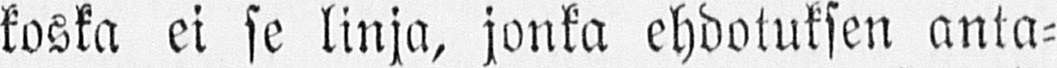koska ei se linja, jonka ehdotuksen anta-
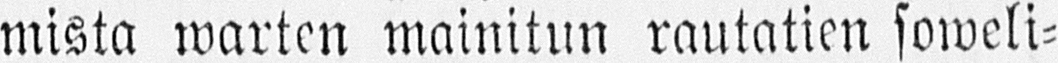mista warten mainitun rautatien soweli-
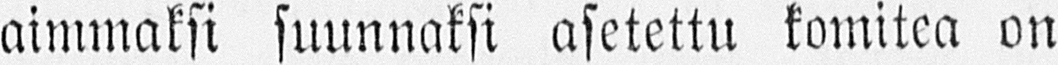aimmaksi suunnaksi asetettu komitea on
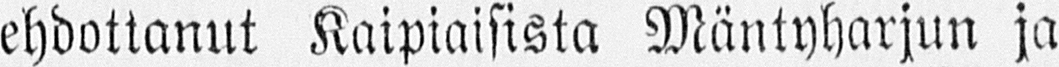ehdottanut Kaipiaisista Mäntyharjun ja
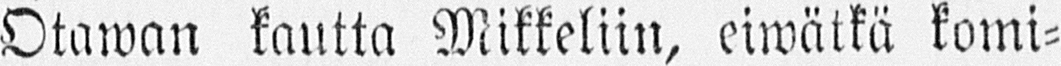Otawan kautta Mikkeliin, eiwätkä komi-
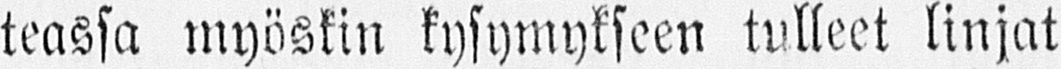teassa myöskin kysymykseen tulleet linjat
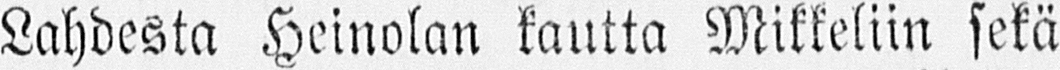Lahdesta Heinolan kautta Mikkeliin sekä
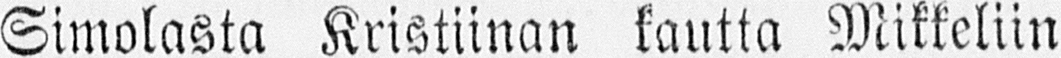Simolasta Kristiinan kautta Mikkeliin
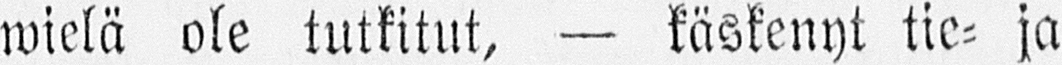wielä ole tutkitut, — käskenyt tie- ja
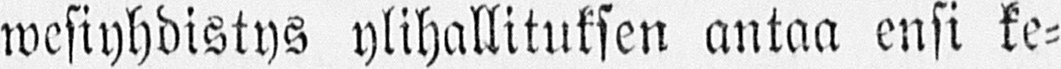wesiyhdistys ylihallituksen antaa ensi ke-
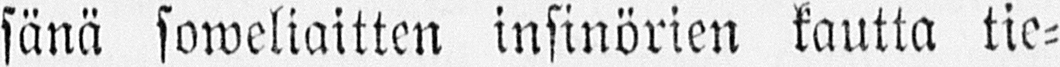sänä soweliaitten insinörien kautta tie-
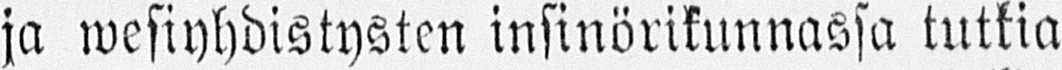ja wesiyhdistysten insinörikunnassa tutkia
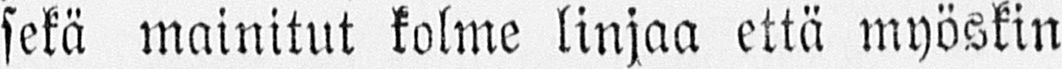sekä mainitut kolme linjaa että myöskin
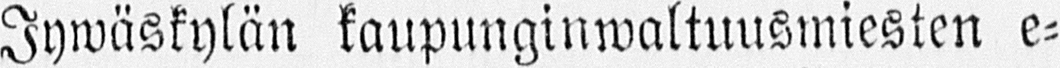Jywäskylän kaupunginwaltuusmiesten e-
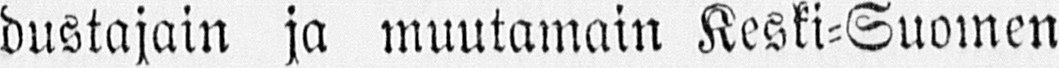dustajain ja muutamain Keski-Suomen
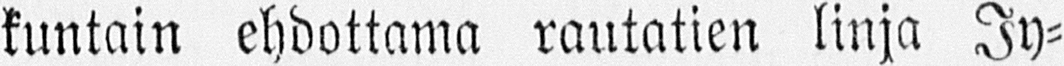kuntain ehdottama rautatien linja Jy-
